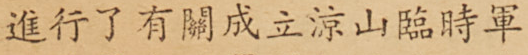進行了有關成立涼山臨時軍
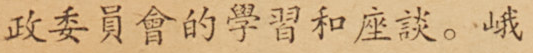政委員會的學習和座談。峨
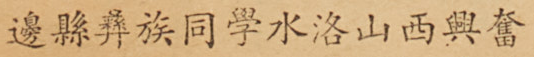邊縣彝族同學水洛山西興奮
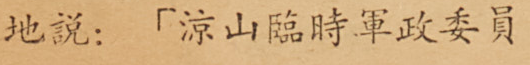地說：「涼山臨時軍政委員
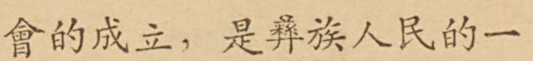會的成立，是彝族人民的一
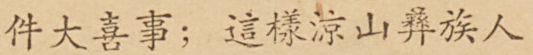件大喜事；這樣涼山彝族人
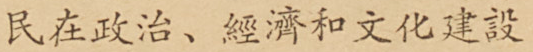民在政治、經濟和文化建設
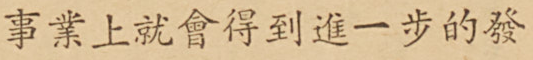事業上就會得到進一步的發
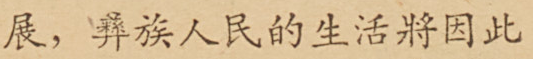展，彝族人民的生活將因此
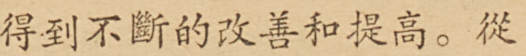得到不斷地改善和提高。從
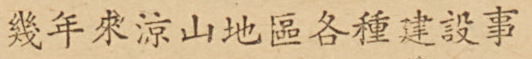幾年來涼山地區各種建設事
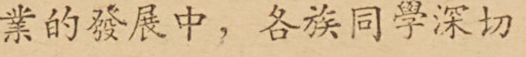業的發展中，各族同學深切
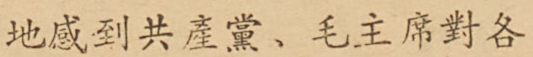地感到共產黨、毛主席對各
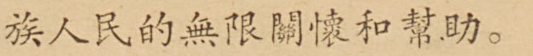族人民的無限關懷和幫助。
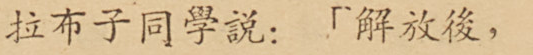拉布子同學說：「解放後，
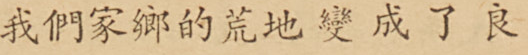我們家鄉的荒地變成了良
